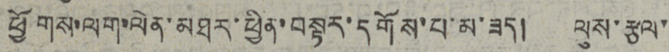ཕྱོགས་ལག་ལེན་མཐར་ཕྱིན་བསྟར་དགོས་པ་མ་ཟད། ལུས་རྩལ་
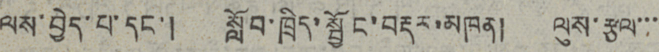ལས་བྱེད་པ་དང་། སློབ་ཁྲིད་སྦྱོང་བརྡར་མཁན། ལུས་རྩལ་་་
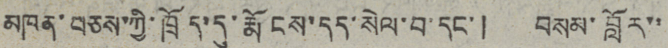མཁན་བཅས་ཀྱི་ཁྲོད་དུ་རྨོངས་དད་སེལ་བ་དང་། བསམ་བློར་་
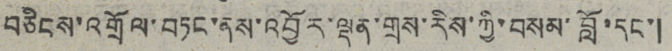བཅིངས་འགྲོལ་བཏང་ནས་འབྱོར་ལྡན་གྲས་རིས་ཀྱི་བསམ་བློ་དང་།
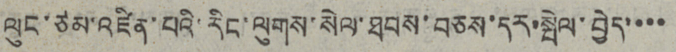ལུང་ཙམ་འཛིན་པའི་རིང་ལུགས་སེལ་ཐབས་བཅས་དར་སྤེལ་བྱེད་་་་
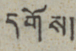དགོས།
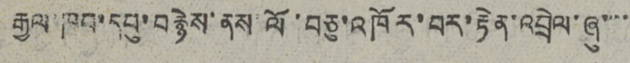རྒྱལ་ཁབ་དབུ་བརྙེས་ནས་ལོ་བཅུ་འཁོར་བར་རྟེན་འབྲེལ་ཞུ་་་་
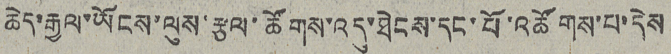ཆེད་རྒྱལ་ཡོངས་ལུས་རྩལ་ཚོགས་འདུ་ཐེངས་དང་པོ་འཚོགས་པ་དེས
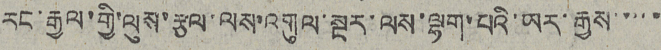རང་རྒྱལ་གྱི་ལུས་རྩལ་ལས་འགུལ་སྔར་ལས་ལྷག་པའི་ཡར་རྒྱས་་་་་
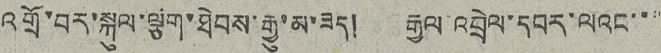འགྲོ་བར་སྐུལ་ལྕག་ཐེབས་རྒྱུ་མ་ཟད།   རྒྱལ་འབྲེལ་དབར་ལའང་་་
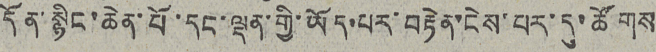དོན་སྙིང་ཆེན་པོ་དང་ལྡན་གྱི་ཡོད་པར་བརྟེན་ངེས་པར་དུ་ཚོགས
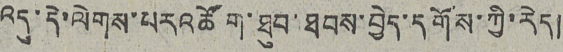འདུ་དེ་ལེགས་པར་འཚོག་ཐུབ་ཐབས་བྱེད་དགོས་ཀྱི་རེད།
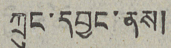ཀྲུང་དབྱང་ནས།
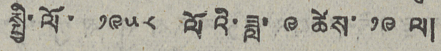སྤྱི་ལོ་ ༡༩༥༨ ལོའི་ཟླ་ ༩ ཚེས་ ༡༩ ལ།
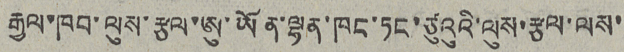རྒྱལ་ཁབ་ལུས་རྩལ་ཨུ་ཡོན་ལྷན་ཁང་ཏང་ཙུའུའི་ལུས་རྩལ་ལས་
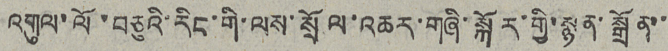འགུལ་ལོ་བཅུའི་རིང་གི་ལས་སྲོལ་འཆར་གཞི་སྐོར་གྱི་སྙན་སྒྲོན་་
